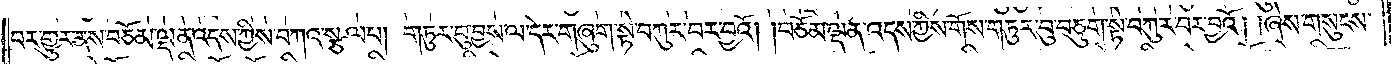བར་གྱུར་ནས་བཅོམ་ལྡན་འདས་ཀྱིས་བཀའ་སྩལ་པ། གཏུར་བུ་བྱས་ལ་དེར་གཞུག་སྟེ་བཀུར་བར་བྱའོ། །བཅོམ་ལྡན་འདས་ཀྱིས་གོས་གཏུར་བུ་བཅུག་སྟེ་བཀུར་བར་བྱའོ། །ཞེས་གསུངས་
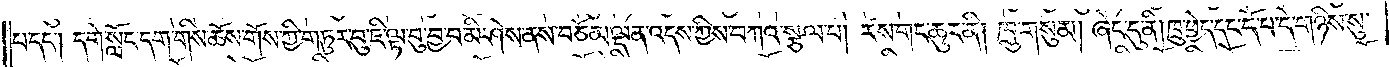པ་དང༌། དགེ་སློང་དག་གིས་ཆོས་གོས་ཀྱི་གཏུར་བུ་ཇི་ལྟ་བུ་བྱ་བ་མི་ཤེས་ནས་བཅོམ་ལྡན་འདས་ཀྱིས་བཀའ་སྩལ་པ། རས་གང་ཆུར་ནི། ཁྲུ་གསུམ། ཞེང་དུ་ནི། ཁྲུ་ཕྱེད་དང་དོ་པ་དེ་གཉིས་སུ་
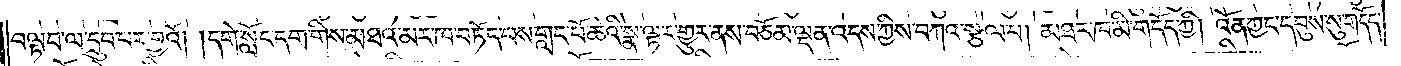བལྟབ་ལ་དྲུབ་པར་བྱའོ། །དགེ་སློང་དག་གིས་མཐའ་མར་ཁ་བཏོད་པས་གླང་པོ་ཆེའི་སྣ་ལྟར་གྱུར་ནས་བཅོམ་ལྡན་འདས་ཀྱིས་བཀའ་སྩལ་པ། མཐར་ཁ་མི་གདོད་ཀྱི། འོན་ཀྱང་དབུས་སུ་གདོད་
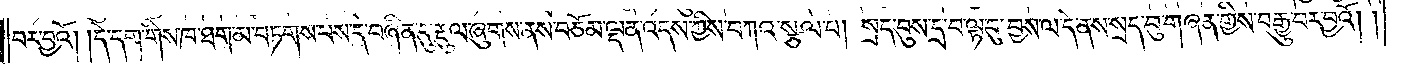བར་བྱའོ། །དེ་དག་གིས་ཁ་ཐག་མ་བཏགས་པས་དེ་བཞིན་དུ་རྡུལ་ཞུགས་ནས་བཅོམ་ལྡན་འདས་ཀྱིས་བཀའ་སྩལ་པ། སྲད་བུས་དྲ་བ་ལྟ་བུ་བྱས་ལ་དེ་ནས་སྲད་བུ་གཞན་གྱིས་བརྒྱུ་བར་བྱའོ། །
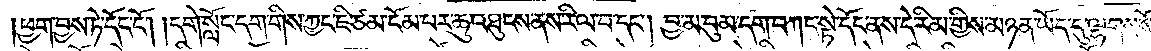དེ་དག་གིས་ཆོས་གོས་གང་དག་བགོ་བ་དག་ནི། འོག་ཏུ་བཞག། གཞན་ནི། སྟེང་དུ་ཕྱུང་བ་དང༌། དེ་དག་གཏུར་བུ་ཡང་དང་ཡང་དུ་འབྱེད་པ་ན། འཆོལ་བར་གྱུར་
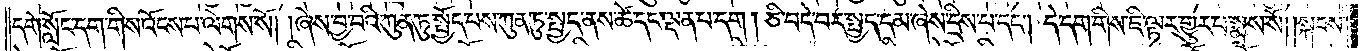དགེ་སློང་དག་གིས་འོངས་པ་ལེགས་སོ། ཞེས་བྱ་བའི་ཀུན་ཏུ་སྤྱད་ནས་ཚེ་དང་ལྡན་པ་དག། ཅི་བདེ་བར་སྤྱད་དམ་དྲིས་པ་དང་། དེ་དག་གིས་ཇི་ལྟར་གྱུར་པ་སྨྲས་སོ། །སྐབས་
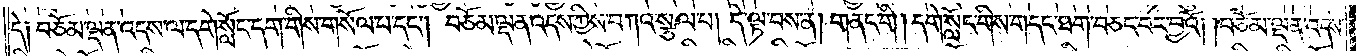དེ༑ བཅོམ་ལྡན་འདས་ལ་དགེ་སློང་དག་གིས་གསོལ་པ་དང་། བཅོམ་ལྡན་འདས་ཀྱིས་བཀའ་སྩལ་པ། དེ་ལྟ་བས་ན། གནང་གི། དགེ་སློང་གིས་གདང་ཐག་བཅང་བར་བྱའོ། །བཅོམ་ལྡན་འདས་
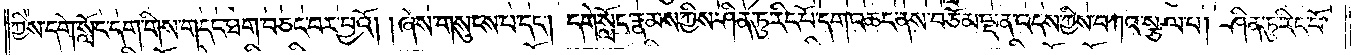ཀྱིས་དགེ་སློང་དག་གིས་གདང་ཐག་བཅང་བར་པྱའོ། །ཞེས་གསུངས་པ་དང་། དགེ་སློང་རྣམས་ཀྱིས་ཤིན་ཏུ་རིང་པོ་དག་འཆང་ནས་བཅོམ་ལྡན་འདས་ཀྱིས་བཀའ་སྩལ་པ། ཤིན་ཏུ་རིང་པོ་
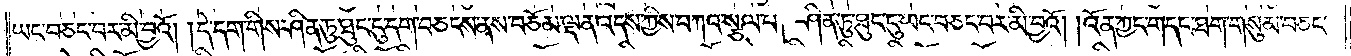ཡང་བཅང་བར་མི་བྱའོ། །དེ་དག་གིས་ཤིན་ཏུ་ཐུང་ངུ་དག་བཅངས་ནས་བཅོམ་ལྡན་འདས་ཀྱིས་བཀའ་སྩལ་པ། ཤིན་ཏུ་ཐུང་ངུ་ཡང་བཅང་བར་མི་བྱའོ། །འོན་ཀྱང་གདང་ཐག་གསུམ་བཅང་
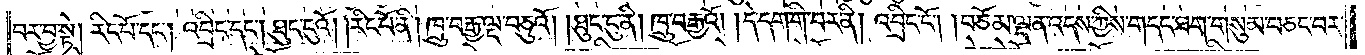བར་བྱ་སྟེ། རིང་པོ་དང་། འབྲིང་དང་། ཐུང་ངུའོ། རིང་པོ་ནི། ཁྲུ་བརྒྱ་ལྔ་བཅུའོ། ཐུང་ངུ་ནི། ཁྲུ་བརྒྱའོ། དེ་དག་གི་བར་ནི། འབྲིང་ངོ་། །བཅོམ་ལྡན་འདས་ཀྱིས་གདང་ཐག་གསུམ་བཅང་བར་
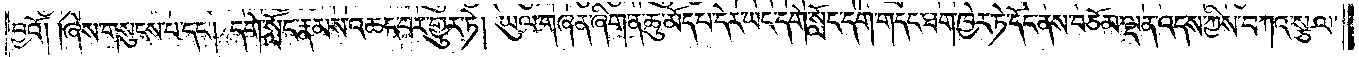བྱའོ། ཞེས་གསུངས་པ་དང་། དགེ་སློང་རྣམས་འཆད་བར་གྱུར་ཏེ། ཡུལ་གཞན་ཞིག་ན་ཆུ་མེད་པ་དེར་ཡང་དགེ་སློང་དག་གདང་ཐག་ཁྱེར་ཏེ་དོང་ནས་བཅོམ་ལྡན་འདས་ཀྱིས་བཀའ་སྩལ་
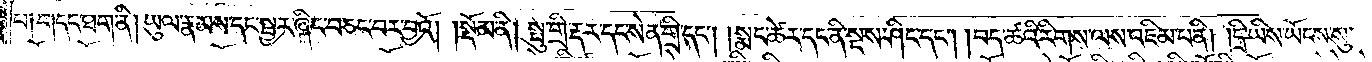པ༑ གདང་ཐག་ནི། ཡུལ་རྣམས་དང་སྦྱར་ཞིང་བཅང་བར་བྱའོ།  སྡོམ་ནི། སྤུ་གྲི་རྡར་དང་སེན་གྲི་དང་། །སྨང་ཚེར་དང་ནི་སྡས་ཤིང་དང་། །བད་ཚའི་རིགས་ལས་འཇིམ་པ་ནི། དྲི་ཡིས་ཡོངས་སུ་
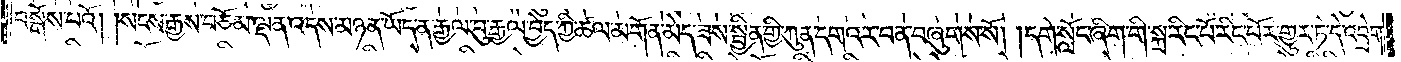བསྒོས་པའོ། །སངས་རྒྱས་བཅོམ་ལྡན་འདས་མཉན་ཡོད་ན་རྒྱལ་བྱེད་ཀྱི་ཚལ་མགོན་མེད་ཟས་སྦྱིན་གྱི་ཀུན་དགའ་ར་བ་ན་བཞུགས་སོ། །དགེ་སློང་ཞིག་གི་སྐྲ་རིང་པོར་གྱུར་ཏེ་དེ་འབྲེག་
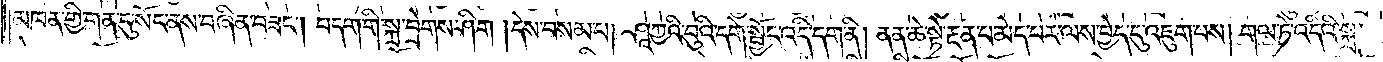མཁན་གྱི་གན་དུ་སོང་ནས་བཞིན་བཟང་། བདག་གི་སྐྲ་བྲེགས་ཤིག །དེས་བསམ་པ། ཤཱ་ཀྱའི་བུའི་དགེ་སྦྱོང་འདི་དག་ནི། ནན་ཆེ་སྟེ་རྔན་པ་མེད་པར་ལས་བྱེད་དུ་འཇུག་པས། གལ་ཏེ་འདིའི་སྐྲ་
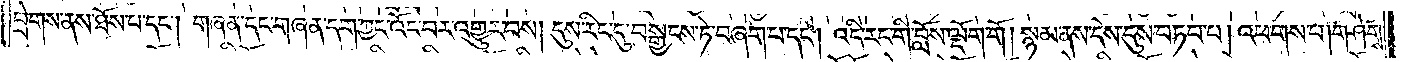བྲེགས་ནས་ཐོས་པ་དང་།  གཞན་དང་གཞན་དག་ཀྱང་འོང་བར་འགྱུར་བས། དུས་རིང་དུ་བསྒྱངས་ཏེ་བཞག་པ་དང་། འདི་རང་གི་བློས་ལྡོག་གོ། སྙམ་ནས་དེས་དུས་བཏབ་པ། འཕགས་པ། གཤེགས་
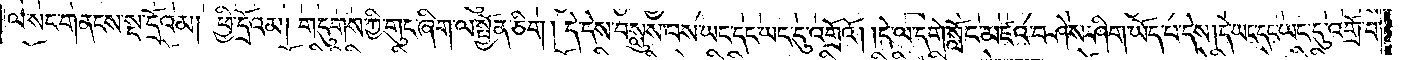ལྡན་པ་དག། ཐབས་ཡོད་ཀྱི། ཐ་མལ་པར་འདུག་ལ་ཆུ་འཐུང་ཞིག། དེ་དག་ཐ་མལ་པར་འདུག་པ་དང༌། དགེ་སློང་དག་གིས་ལྷས་མ་དང༌། ལྕག་ཕོད་དང༌། རྒྱ་ཅང་དག་མཐུད་དེ་ལྷུང་བཟེད་ཁྲོན་
